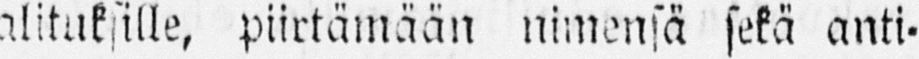walituksille, piirtämään nimensä sekä anti-
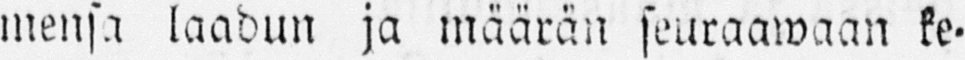mensa laadun ja määrän seuraawaan ke-
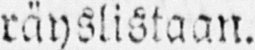räyslistaan.
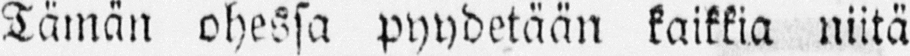Tämän ohessa pyydetään kaikkia niitä
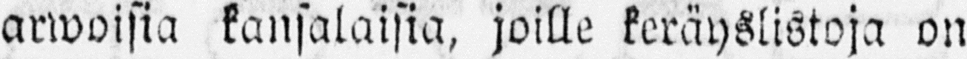arwoisia kansalaisia, joille keräyslistoja on
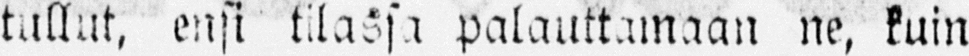tullut, ensi tilassa palauttamaan ne, kuin
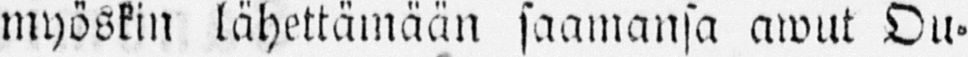myöskin lähettämään saamansa awut Ou-
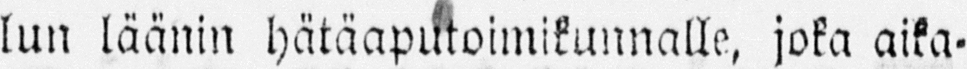lun läänin hätäaputoimikunnalle, joka aika-
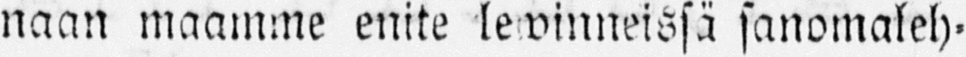naan maamme enite lewinneissä sanomaleh-
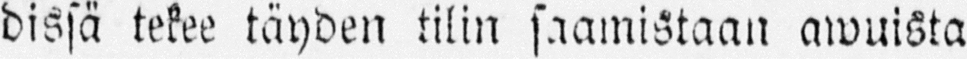dissä tekee täyden tilin saamistaan awuista
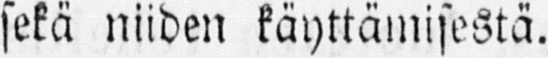sekä niiden käyttämisestä.
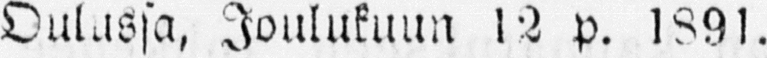Oulussa, Joulukuun 12 p. 1891.
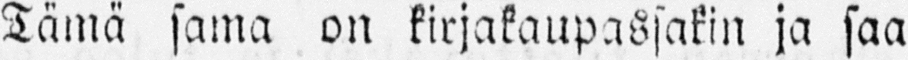Tämä sama on kirjakaupassakin ja saa
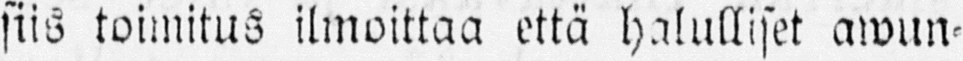siis toimitus ilmoittaa että halulliset awun-
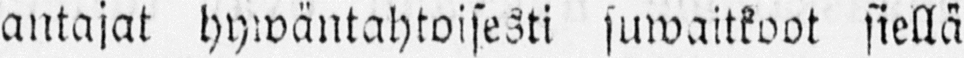antajat hywäntahtoisesti suwaitkoot siellä
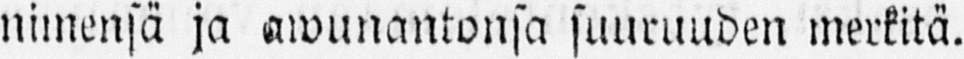nimensä ja awunantonsa suuruuden merkitä.
